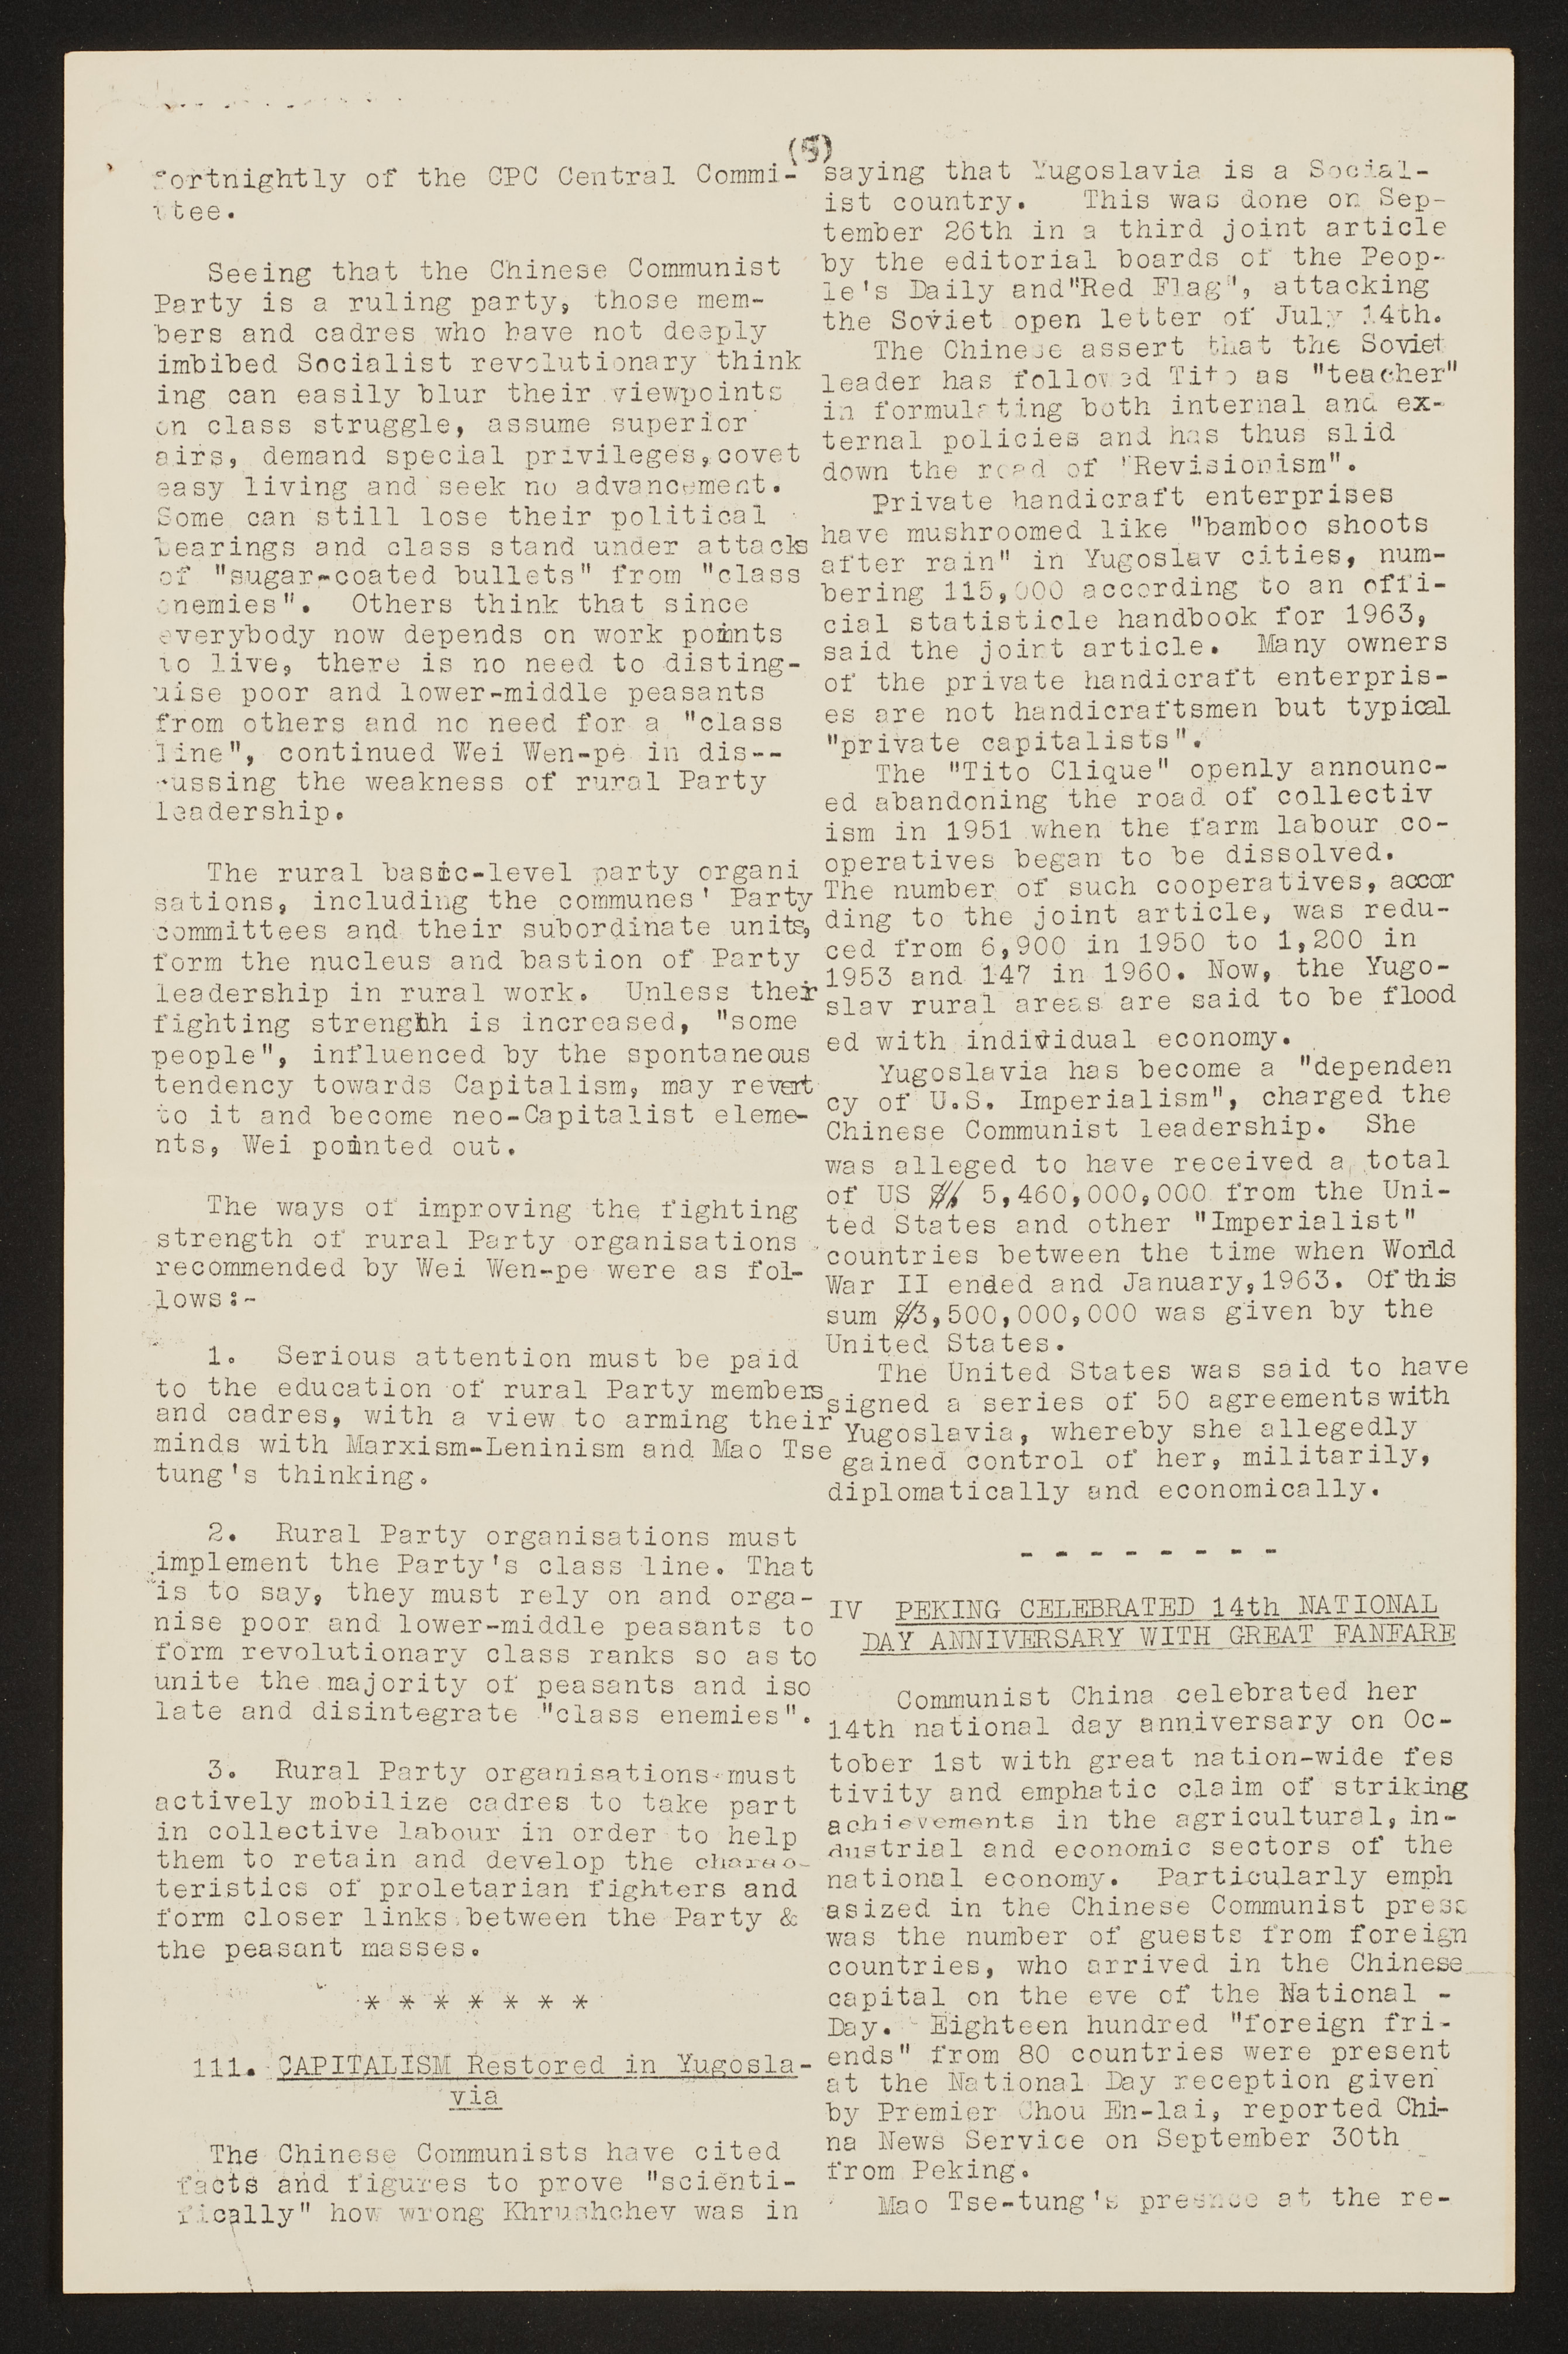(5)
fortnightly of the CPC Central Commi-
tee.
Seeing that the Chinese Communist
Party is a ruling party, those mem-
bers and cadres who have not deeply
imbibed Socialist revolutionary think
ing can easily blur their viewpoints
on class struggle, assume superior
airs, demand special privileges, covet
easy living and seek no advancement.
Some can still lose their political
bearings and class stand under attacks
of "sugar coated bullets" from "class
enemies". Others think that since
everybody now depends on work points
to live, there is no need to disting-
uise poor and lower-middle peasants
from others and no need for a "class
line", continued Wei wen-pe in dis--
cussing the weakness of rural Party
leadership.
The rural basic-level party organi
sations, including the communes', Party
committees and the subordinate units,
form the nucleus and bastion of Party
leadership in rural work. Unless their
fighting strength is increased, "some
people", influenced by the spontaneous
tendency towards Capitalism, may revert
to it and become neo-Capitalist eleme-
nts, Wei pointed out.
The ways of improving the fighting
strength of rural Party organisations
recommended by Wei Wen-pe were as fol-
lows: -
1. Serious attention must be paid
to the education of rural Party members
and cadres, with a view to arming their
minds with Marxism-Leninism and Mao Tse
tung's thinking.
2. Rural Party organisations must
implement the Party's class line. That
is to say, they must rely on and orga-
nise poor and lower-middle peasants to
form revolutionary class ranks so as to
unite the majority of peasants and iso
late and disintegrate "class enemies"
3. Rural Party organisations must
actively mobilize cadres to take part
in collective labour in order to help
them to retain and develop the charac-
teristics of proletarian fighters and
form closer links between the Party &
the peasant masses.
111. CAPITALISM Restored in Yugosla-
via
The Chinese Communists have cited
facts and figures to prove "scienti-
fically" how wrong Krushchev was in
saying that Yugoslavia is a Social-
ist country. This was done on Sep-
tember 26th in a third joint article
by the editorial boards of the Peop-
le's Daily and "Red Flag", attacking
the Soviet open letter of July 14th.
The Chinese assert that the Soviet
leader has followed Tito as "teacher"
in formulating both internal and ex-
ternal polices and has thus slid
down the road of "Revisionism".
Private handicraft enterprises
have mushroomed like "bamboo shoots
after rain" in Yugoslav cities, num-
bering 115,000 according to an offi-
cial statisticle handbook for 1963,
said the joint article. Many owners
of the private handicraft enterpris-
es are not handicraftsmen but typical
"private capitalists".
The "Tito Clique" openly announc-
ed abandoning the road of collectiv
ism in 1951 when the farm labour co-
operatives began to be dissolved.
The number of such cooperatives, accor
ding to the joint article, was redu-
ced from 6,900 in 1950 to 1,200 in
1953 and 147 in 1960. Now, the Yugo--
slav rural areas are said to be flood
ed with individual economy.
Yugoslavia has become a "dependen
cy of U.S. Imperialism", charged the
Chinese Communist leadership. She
was alleged to have received a total
of US $, 5,460,000,000 from the Uni-
ted States and other "Imperialist"
countries between the time when world
War II ended and January, 1963. Of this
sum $3,500,000,000 was given by the
United States.
The United States was said to have
signed a series of 50 agreements with
Yugoslavia, whereby she allegedly
gained control of her, militarily,
diplomatically and economically.
IV PEKING CELEBRATED 14th NATIONAL
DAY ANNIVERSARY WITH GREAT FANFARE
Communist China celebrated her
14th national day anniversary on Oc-
tober 1st with great nation-wide fes
tivity and emphatic claim of striking
achievements in the agricultural, in-
dustrial and economic sectors of the
national economy. Particularly emph
asized in the Chinese Communist press
was the number of guests from foreign
countries, who arrived in the Chinese
capital on the eve of the National -
Day. Eighteen hundred "foreign fri-
ends" from 80 countries were present
at the National Day reception given
by Premier Chou En-lai, reported Chi-
na News Service on September 30th
from Peking.
Mao Tse-tung's presence at the re-
